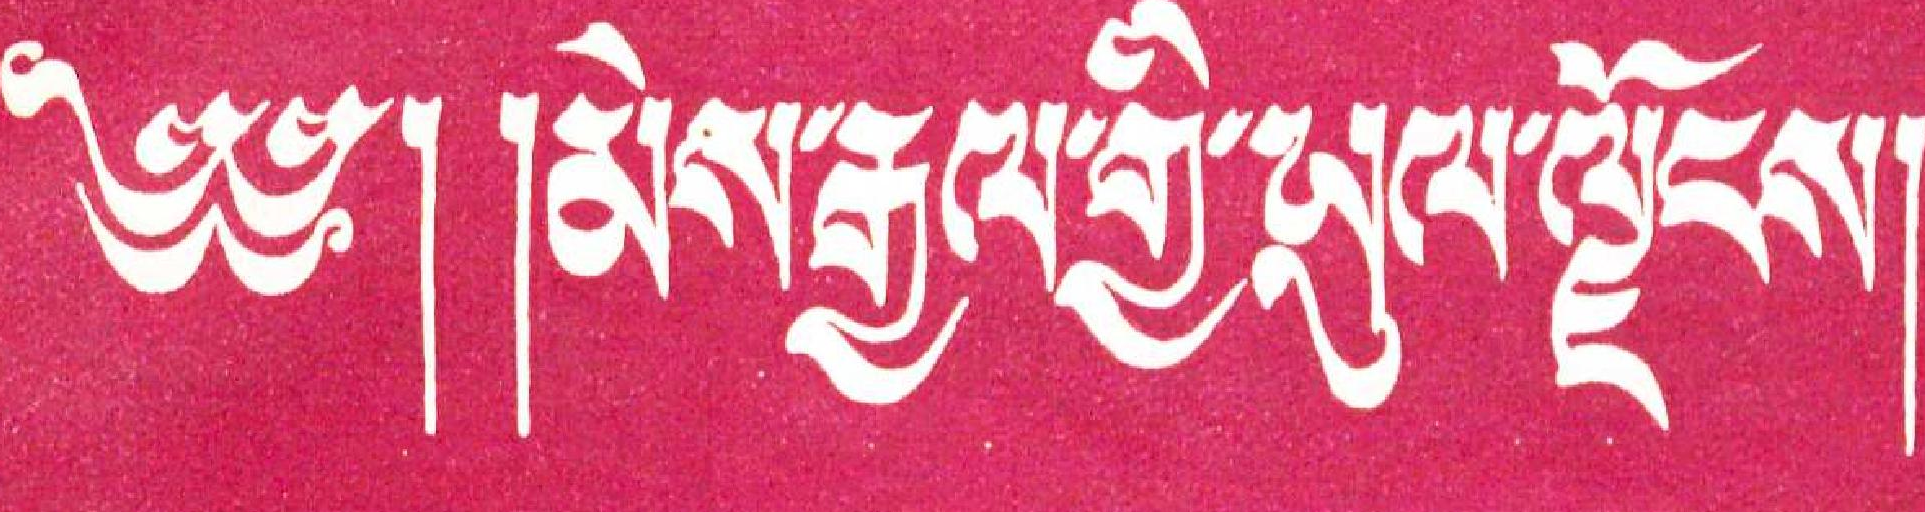༄༅༎མེས་རྒྱལ་གྱི་ཡུལ་ལྗོངས།
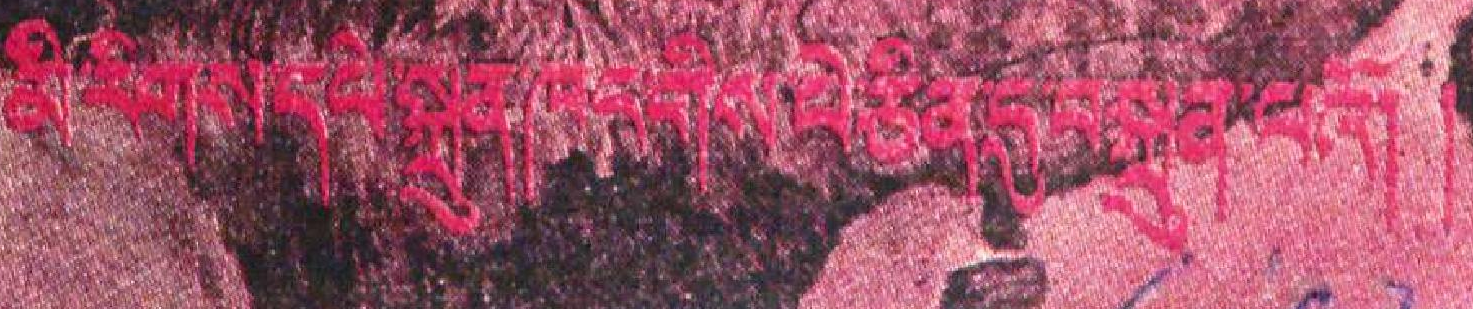མི་རིགས་དཔེ་སྐྲུན་ཁང་གིས་པེ་ཅིན་དུ་བསྐྲུན་པའོ། །
